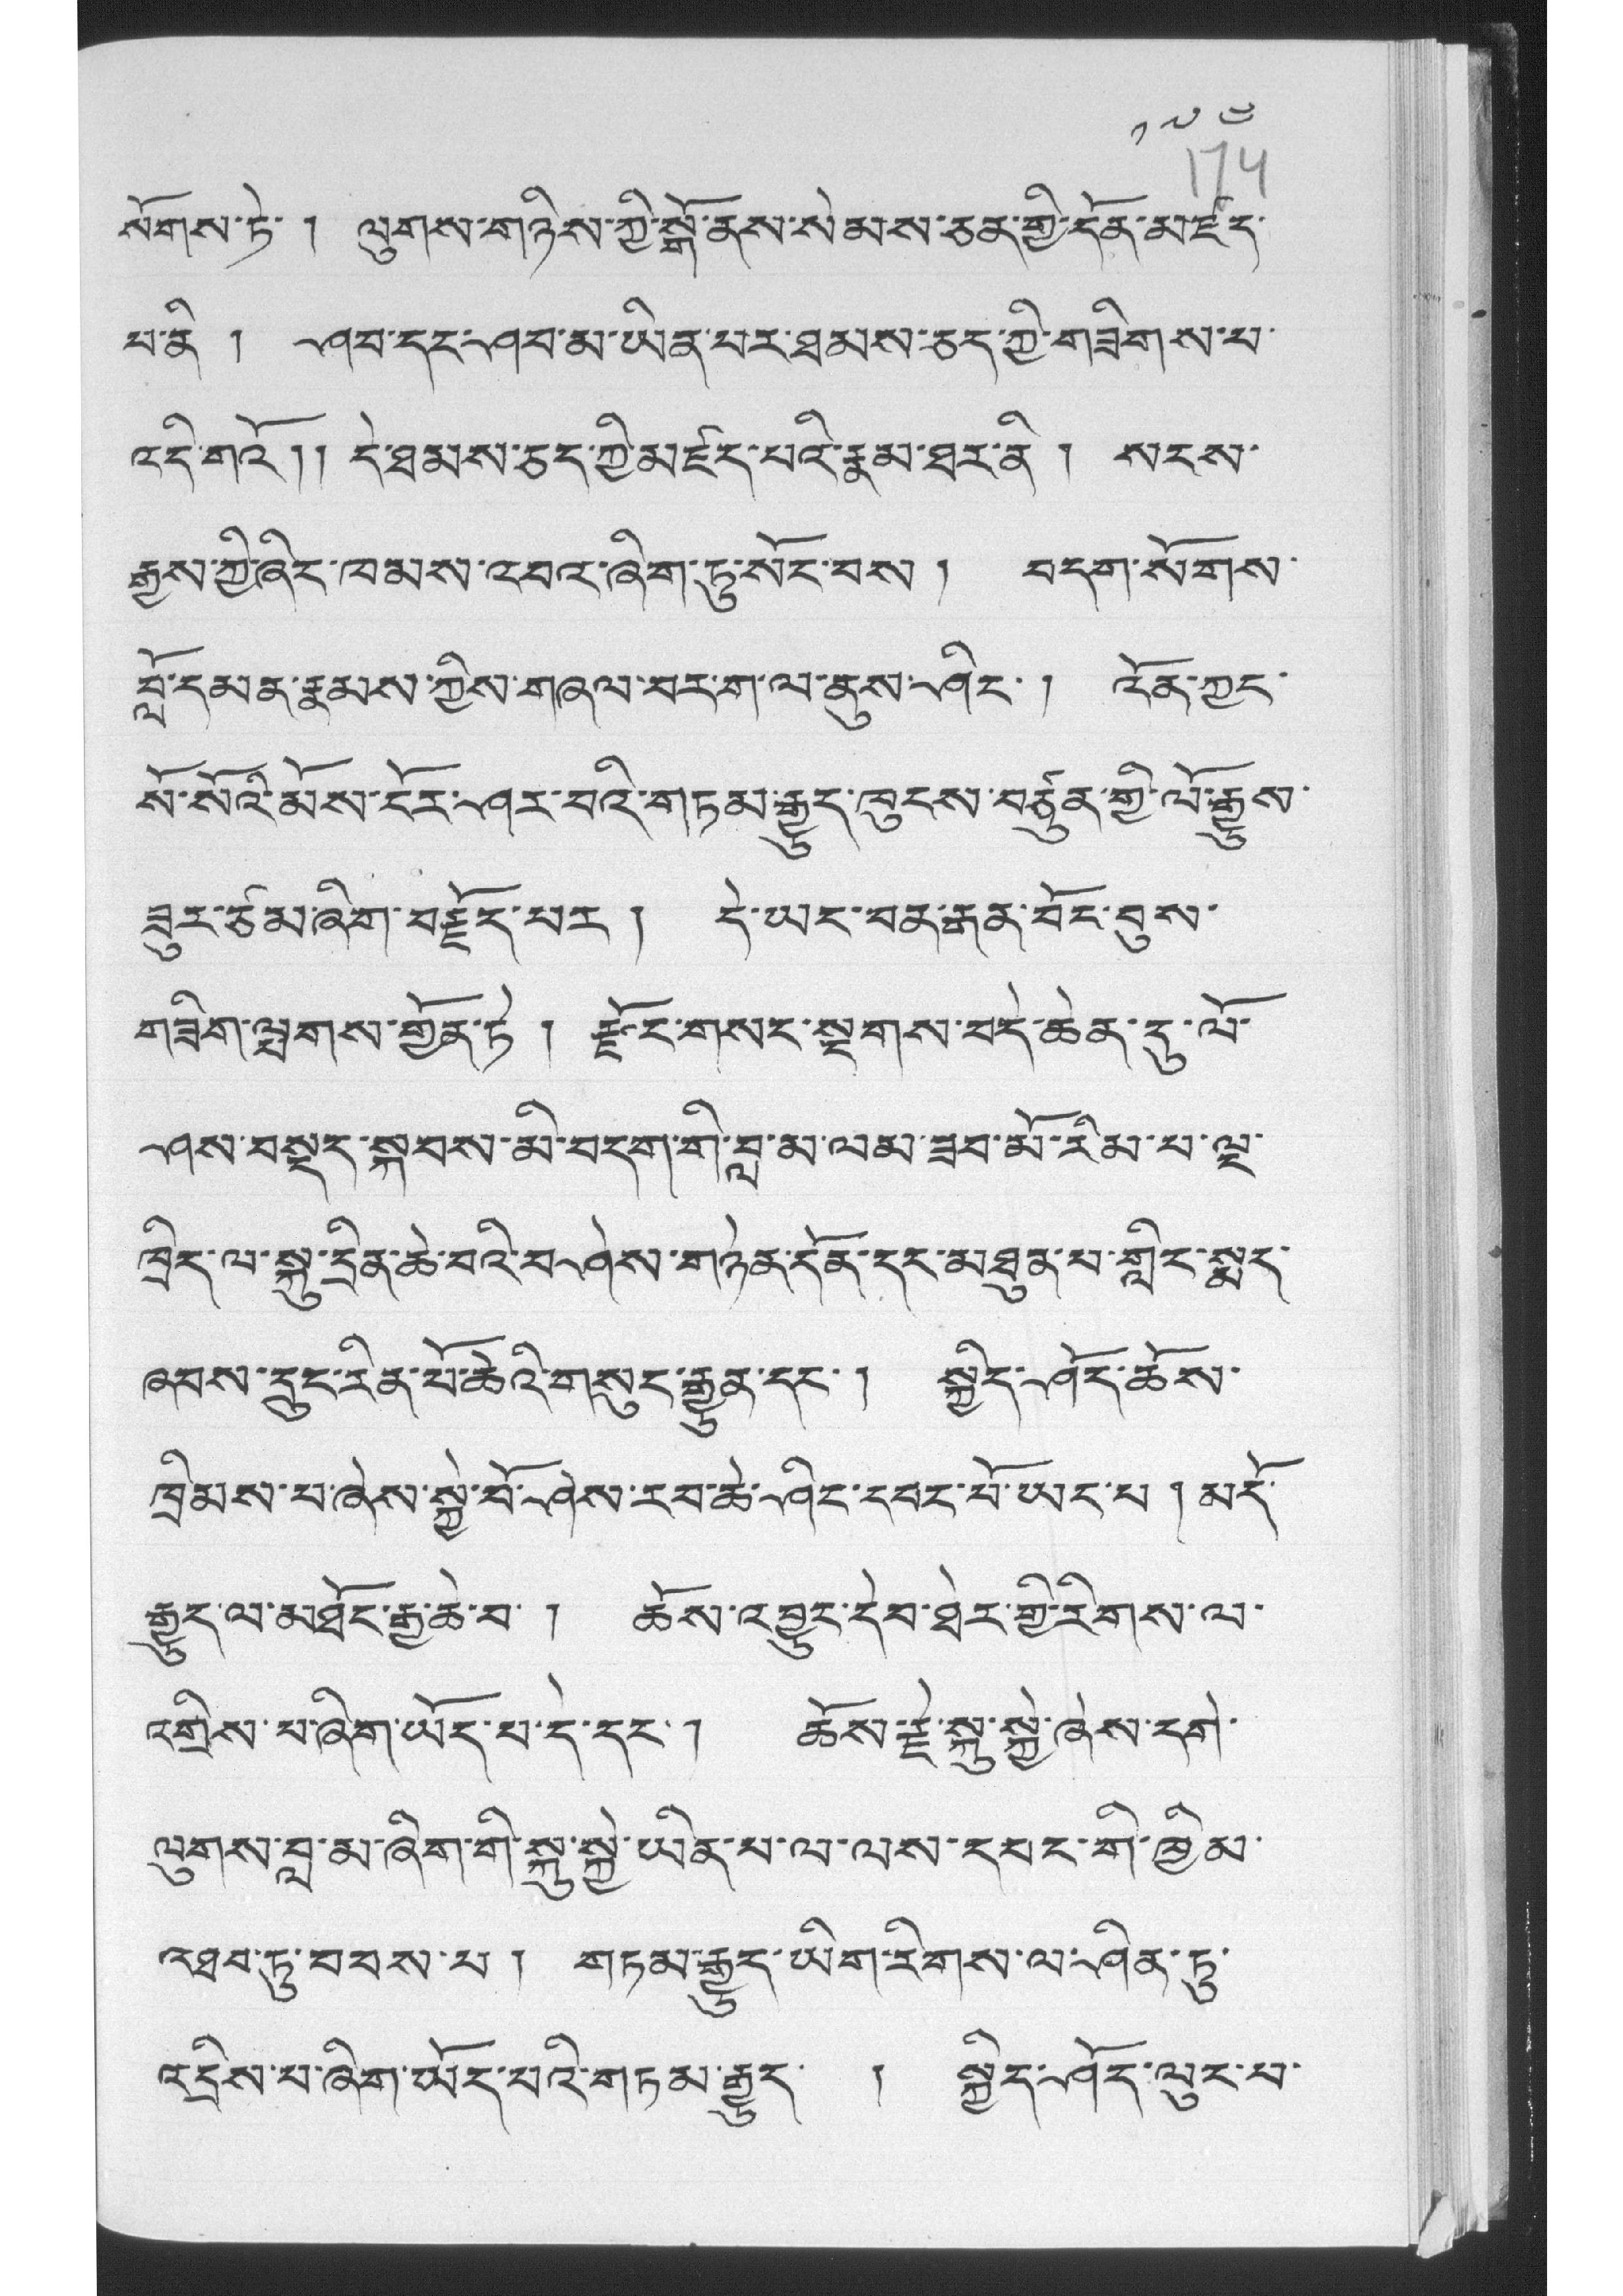༡༧༤
སོགས་ཏེ་ ། ལུགས་གཉིས་ཀྱི་སྒོ་ནས་སེམས་ཅན་གྱི་དོན་མཛད་
པ་ནི ། ཤབ་དང་ཤབ་མ་ཡིན་པར་ཐམས་ཅད་ཀྱི་གཟིགས་པ་
འདི་གའོ།། དེ་ཐམས་ཅད་ཀྱི་མཛད་པའི་རྣམ་ཐར་ནི ། སངས་
རྒྱས་ཀྱི་ཞིང་ཁམས་འབའ་ཞིག་ཏུ་སང་བས། བདག་སོགས་
བློ་དམན་རྣམས་ཀྱིས་གཞལ་བར་ག་ལ་ནུས་ཤིང་། འོན་ཀྱང་
སོ་སོའི་མོས་ངོར་ཤར་བའི་གཏམ་རྒྱུད་ཁུངས་བཙུན་གྱི་ལོ་རྒྱུས་
ཟུར་ཙམ་ཞིག་བརྗོད་པར། དེ་ཡང་བན་རྒན་བོང་བུས་
གཟིག་ལྤགས་གྱོན་ཏེ ། རྗོང་གསར་སྔགས་བདེ་ཆེན་དུ་ལོ་
ཤས་བསྡད་སྐབས་མི་བདག་གི་བླ་མ་ལམ་ཟབ་མོ་རིམ་པ་ལྔ་
ཁྲིད་ལ་སྐུ་དྲིན་ཆེ་བའི་བ་ཤེས་གཉེན་དོན་དང་མཐུན་པ་གླིང་སྨད་
ཞབས་དྲུང་རིན་པོ་ཆེའི་གསུང་རྒྱུན་དང་། སྐྱིད་ཤོད་ཆོས་
ཁྲིམས་པ་ཞེས་སྐྱེ་བོ་ཤེས་རབ་ཆེ་ཤིང་དབང་པོ་ཡོད་པ། མདོ་
རྒྱུད་ལ་མཐོང་རྒྱ་ཆེ་བ་ ། ཆོས་འབྱུང་དེབ་ཐེར་གྱི་རིགས་ལ་
འགྲིས་པ་ཞིག་ཡོད་པ་དེ་དང་། ཆོས་རྗེ་སྐུ་སྐྱེ་ཞེས་དགེ་
ལུགས་བླ་མ་ཞིག་གི་སྐུ་སྐྱེ་ཡིན་པ་ལ་ལས་དཔང་གི་ཁྱིམ་
འཐབ་ཏུ་བབས་པ། གཏམ་རྒྱུད་ཡིག་རིགས་ལ་ཤིན་ཏུ་
འདྲིས་པ་ཞིག་ཡོད་པའི་གཏམ་རྒྱུད་ ། སྐྱེད་ཤོད་ལུང་པ་
